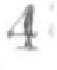4
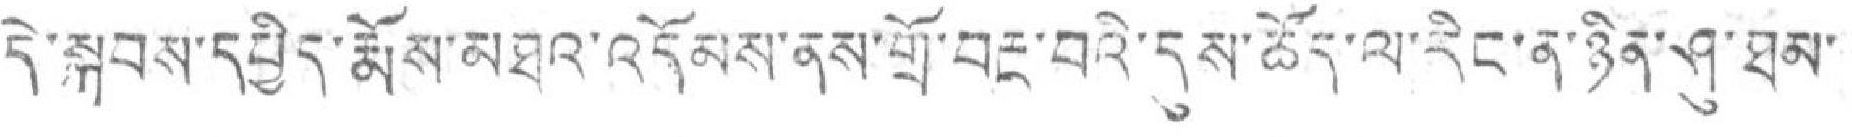དེ་སྐབས་དཔྱིད་རྨོས་མཐའ་འདོམས་ནས་གྲོ་བརྔ་བའེ་དུས་ཚོད་ལ་རིང་ན་ཉིན་ཤུ་ཐམ་
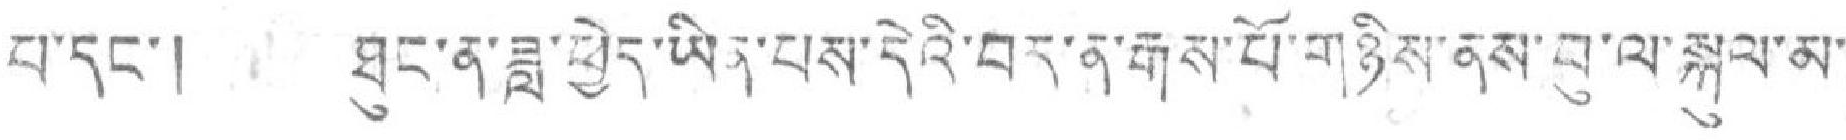པ་དང་། ཐུང་ན་ཟླ་ཕྱེད་ཡིན་པས་དེའི་བར་ན་རྒས་པོ་གཉིས་ནས་བུ་ལ་སྐུལ་མ་
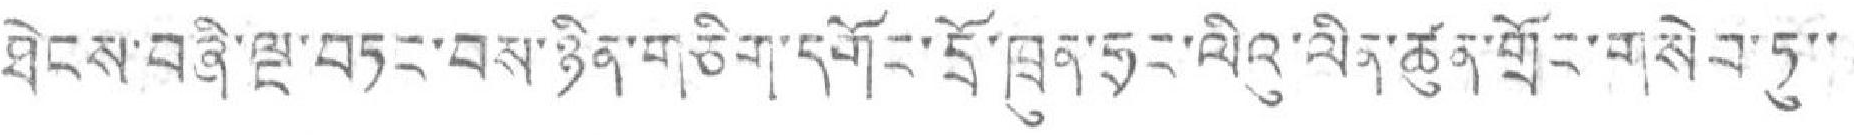ཐེངས་བཞི་ལ་བཏང་བྱས་ཉིན་གཅིག་དགོང་དྲོ་ཁྲུན་ཧྲང་ལིའུ་ལིན་ཚུན་གྲོང་གསེབ་ཏུ་་
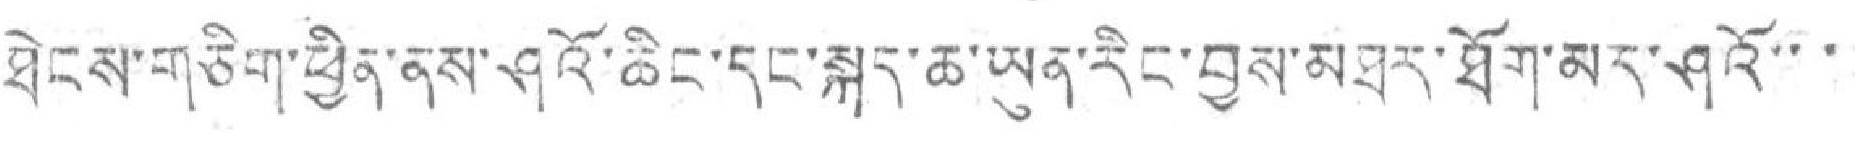ཐེངས་གཅིག་ཕྱིན་ནས་ཤུའོ་ཆིང་དང་སྐད་ཆ་ཡུན་རིང་བྱས་མཐར་ཐོག་མར་ཤའོ་་་
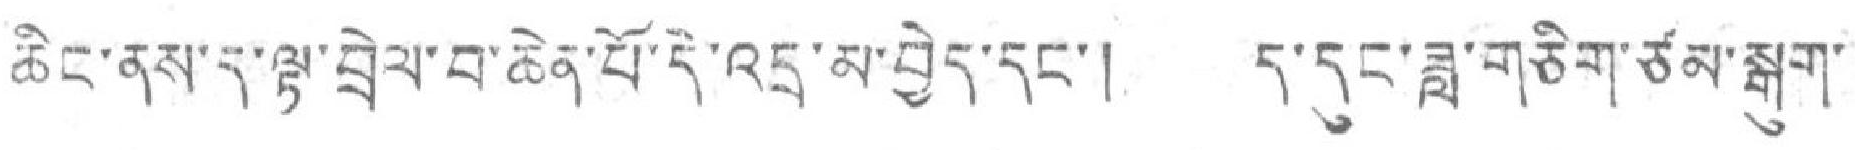ཆིང་ནས་ད་ལྟ་བྲེལ་བ་ཆེན་པོ་དེ་འདྲ་མ་བྱེད་དང་། ད་དུང་ཟླ་གཅིག་ཙམ་སྒུག་
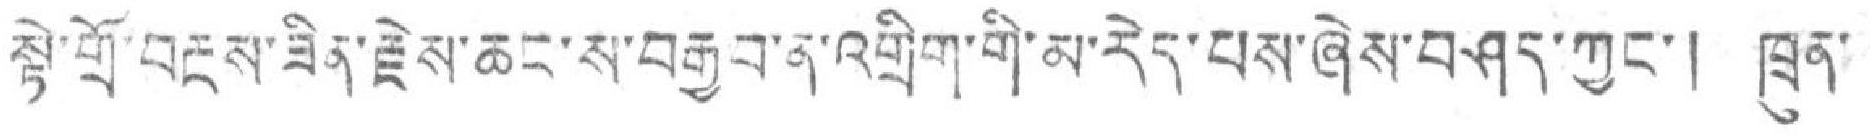སྟེ་གྲོ་བརྔས་ཟིན་རྗེས་ཆང་ས་བརྒྱབ་ན་འགྲིག་གི་མ་རེད་པས་ཞེས་བཤད་ཀྱང་། ཁྲུན་
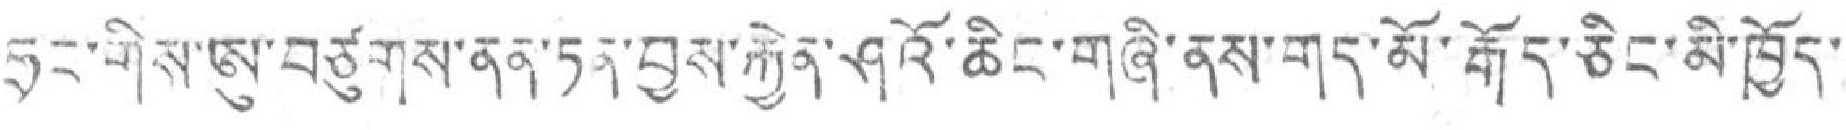ཧྲང་གིས་ཨུ་བཙུགས་ནན་ཏན་བྱས་རྐྱེན་ཤུའོ་ཆིང་གཞི་ནས་གད་མོ་རྒོད་ཅིང་མི་ཁྱོད་
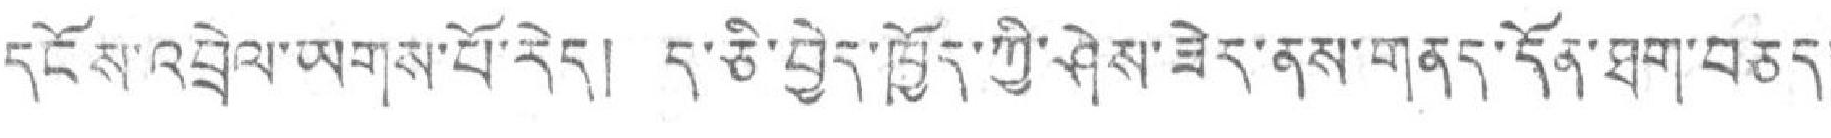དངོས་འབྲེལ་ཡགས་པོ་རེད། ད་ཅི་བྱེད་ཁྱོད་ཀྱི་ཤེས་ཟེར་ནས་གནད་དོན་ཐག་བཅད་
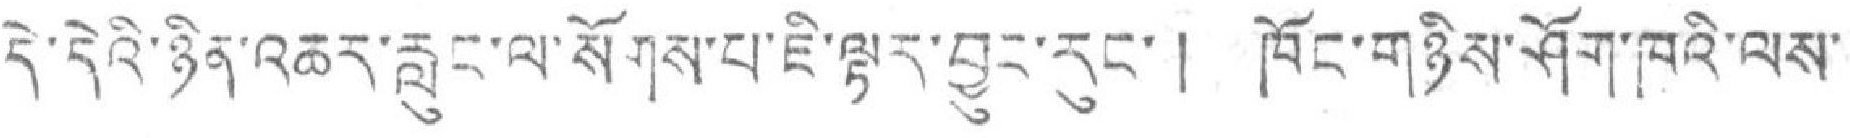དེ་དེའི་ཉིན་འཆར་རླུང་ལ་སོགས་པ་ཇི་ལྟར་བྱུང་རུང་། ཁོང་གཉིས་ཤོག་ཁའི་ལས་
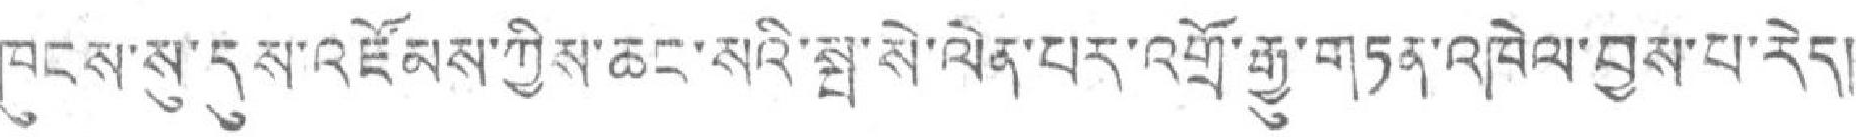ཁུངས་སུ་དུས་འཛོམས་ཀྱིས་ཆང་སའི་སྤ་སེ་ལེན་པར་འགྲོ་རྒྱུ་གཏན་འཁེལ་བྱས་པ་རེད།
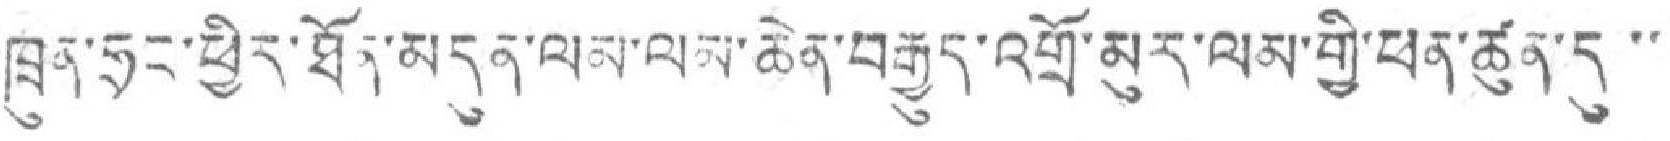ཁྲུན་ཧྲང་ཕྱིར་ཐོན་མདུན་ལམ་ལམ་ཆེན་བརྒྱུད་འགྲོ་མུར་ལམ་གྱི་ཕན་ཚུན་དུ་་་
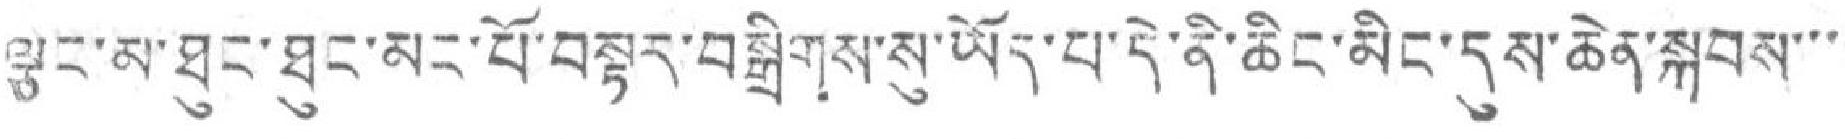ལྕང་མ་ཐུང་ཐུང་མང་པོ་བསྟར་བསྒྲིགས་སུ་ཡོད་པ་དེ་ནི་ཆིང་མིང་དུས་ཆེན་སྐབས་་་
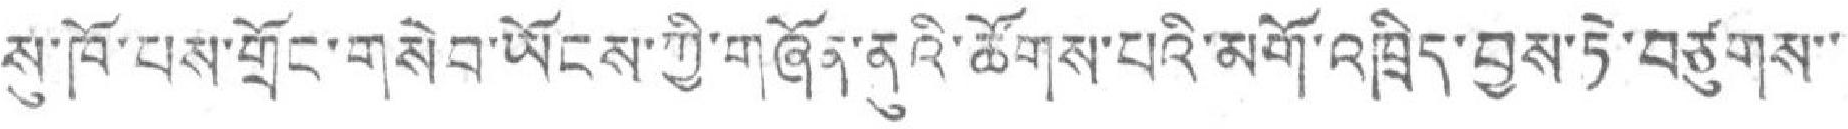སུ་ཁོ་པས་གྲོང་གསེབ་ཡོངས་ཀྱི་གཞོན་ནུའི་ཚོགས་པའི་མགོ་འཁྲིད་བྱས་ཏེ་བཙུགས་་
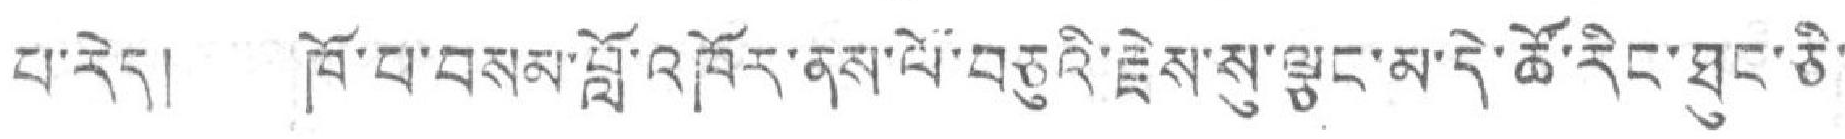པ་རེད། ཁོ་པ་བསམ་བློ་འཁོར་ནས་ལོ་བཅུའི་རྗེས་སུ་ལྕང་མ་དེ་ཚོ་རིང་ཐུང་ཅི་
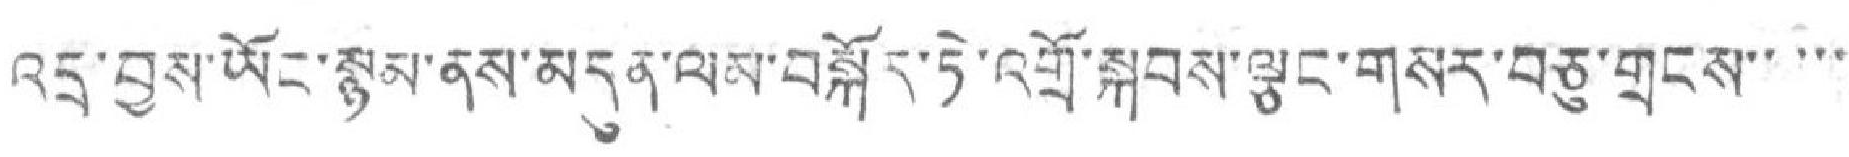འདྲ་བྱས་ཡོང་སྙམ་ནས་མདུན་ལམ་བསྐོར་ཏེ་འགྲོ་སྐབས་ལྕང་གསར་བཅུ་གྲངས་་་་་
